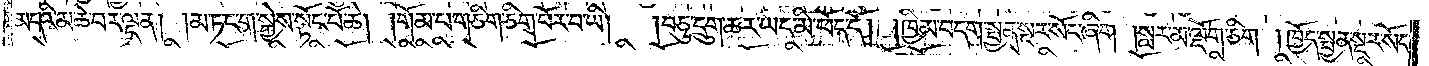མདའི་མཆེ་བར་ལྡན། །མ་ཏང་ག་སྐྱེས་སྟོང་པོ་ཆེ། །གོམ་པ་གཅིག་ཅིག་བོར་བ་ཡི།   །བཅུ་དྲུག་ཆར་ཡང་མི་ཕོད་དོ། །ཁྱིམ་བདག་སྤྱན་སྔར་སོང་ཞིག །སླར་མ་ལྡོག་ཅིག །ཁྱོད་སྤྱན་སྔར་སོང་
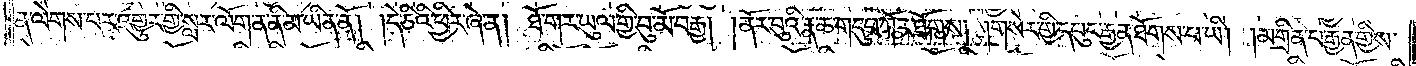ན་ལེགས་པར་འགྱུར་གྱི་སླར་ལོག་ན་ནི་མ་ཡིན་ནོ། །དེ་ཅིའི་ཕྱིར་ཞེ་ན། ཐོ་གར་ཡུལ་གྱི་བུ་མོ་བརྒྱ། །ནོར་བུའི་རྣ་ཆ་གདུབ་ཀོར་ཐོགས། །གསེར་གྱི་དཔུང་རྒྱན་ཐོགས་པ་ཡི། །མགྲིན་པ་རྒྱན་གྱིས་
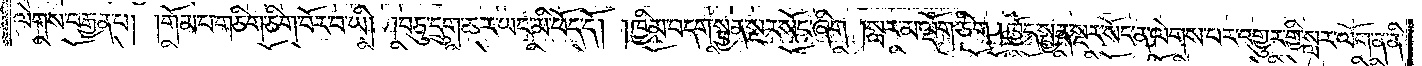ལེགས་བརྒྱན་པ། །གོམ་པ་གཅིག་ཅིག་བོར་བ་ཡི། །བཅུ་དྲུག་ཆར་ཡང་མི་ཕོད་དོ། །ཁྱིམ་བདག་སྤྱན་སྔར་སོང་ཞིག། །སླར་མ་ལྡོག་ཅིག །ཁྱོད་སྤྱན་སྔར་སོང་ན་ལེགས་པར་འགྱུར་གྱི་སླར་ལོག་ན་ནི་
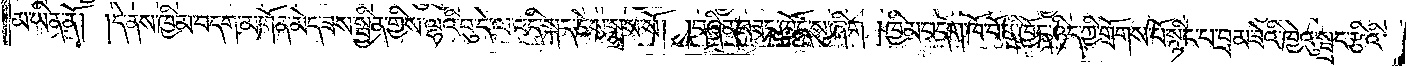མ་ཡིན་ནོ། །དེ་ནས་ཁྱིམ་བདག་མགོན་མེད་ཟས་སྦྱིན་གྱིས་ལྷའི་བུ་དེ་ལ་འདི་སྐད་ཅེས་སྨྲས་སོ། །བཞིན་བཟང་ཁྱོད་སུ་ཞིག །ཁྱིམ་བདག་ཁོ་བོ་ནི་ཁྱོད་ཉིད་ཀྱི་གྲོགས་པོ་སྙིང་པ་བྲམ་ཟེའི་ཁྱེའུ་སྦྲང་རྩིའི་
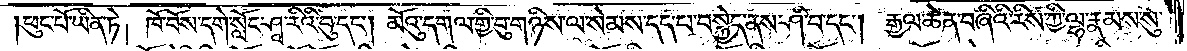ཕུང་པོ་ཡིན་ཏེ། ཁོ་བོས་དགེ་སློང་ཤཱ་རིའི་བུ་དང༌། མོའུ་དགལ་གྱི་བུ་གཉིས་ལ་སེམས་དད་པ་བསྐྱེད་ནས་ཤི་བ་དང༌།   རྒྱལ་ཆེན་བཞིའི་རིས་ཀྱི་ལྷ་རྣམས་སུ་
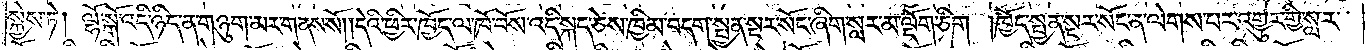སྐྱེས་ཏེ། ལྷོ་སྒོ་འདི་ཉིད་ན་གཉུག་མར་གནས་སོ། །དེའི་ཕྱིར་ཁྱོད་ལ་ཁོ་བོས་འདི་སྐད་ཅེས་ཁྱིམ་བདག་སྤྱན་སྔར་སོང་ཞིག་སླར་མ་ལྡོག་ཅིག །ཁྱོད་སྤྱན་སྔར་སོང་ནས་ལེགས་པར་འགྱུར་གྱི་སླར་
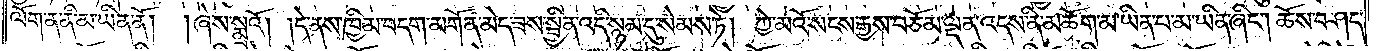ལོག་ན་ནི་མ་ཡིན་ནོ། །ཞེས་སྨྲའོ། །དེ་ནས་ཁྱིམ་བདག་མགོན་མེད་ཟས་སྦྱིན་འདི་སྙམ་དུ་སེམས་ཏེ། ཀྱེ་མའོ་སངས་རྒྱས་བཅོམ་ལྡན་འདས་ནི་མཆོག་མ་ཡིན་པ་མ་ཡིན་ཞིང༌། ཆོས་བཤད་
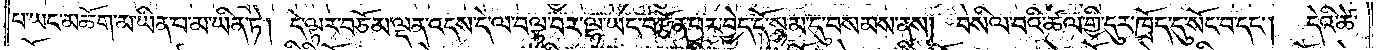པ་ཡང་མཆོག་མ་ཡིན་པ་མ་ཡིན་ཏེ། དེ་ལྟར་བཅོམ་ལྡན་འདས་དེ་ལ་བལྟ་བར་ལྷ་ཡང་བརྩོན་པར་བྱེད་དོ་སྙམ་དུ་བསམས་ནས། བསིལ་བའི་ཚལ་གྱི་དུར་ཁྲོད་དུ་སོང་བ་དང༌། དེའི་ཚེ་
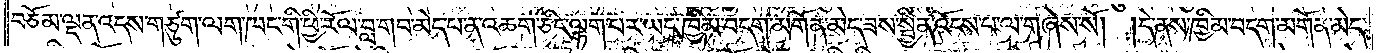བཅོམ་ལྡན་འདས་གཙུག་ལག་ཁང་གི་ཕྱི་རོལ་བླ་གབ་མེད་པ་ན་འཆག་ཅིང་ལྷག་པར་ཡང་ཁྱིམ་བདག་མགོན་མེད་ཟས་སྦྱིན་འོངས་པ་ལ་གཞེས་སོ། །དེ་ནས་ཁྱིམ་བདག་མགོན་མེད་
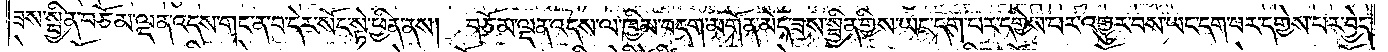ཟས་སྦྱིན་བཅོམ་ལྡན་འདས་གང་ན་བ་དེར་སོང་སྟེ་ཕྱིན་ནས། བཅོམ་ལྡན་འདས་ལ་ཁྱིམ་བདག་མགོན་མེད་ཟས་སྦྱིན་གྱིས་ཡང་དག་པར་དགྱེས་པར་འགྱུར་བས་ཡང་དག་པར་དགྱེས་པར་བྱེད་
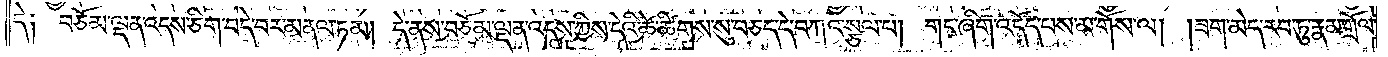དེ། བཅོམ་ལྡན་འདས་ཅིག་བདེ་བར་མནལ་ཏམ། དེ་ནས་བཅོམ་ལྡན་འདས་ཀྱིས་དེའི་ཚེ་ཚིགས་སུ་བཅད་དེ་བཀའ་སྩལ་པ། གང་ཞིག་འདོད་པས་མ་གོས་ལ། །ཟག་མེད་རབ་ཏུ་རྣམ་གྲོལ་
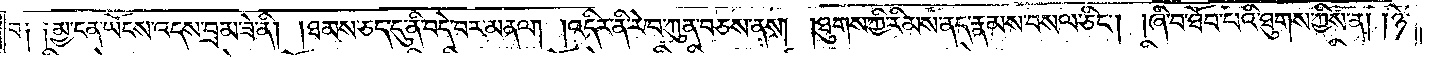བ། །མྱ་ངན་ཡོངས་འདས་བྲམ་ཟེ་ནི། །ཐམས་ཅད་དུ་ནི་བདེ་བར་མནལ། །འདིར་ནི་རེ་བ་ཀུན་བཅས་ནས། །ཐུགས་ཀྱི་རིམས་ནད་རྣམས་བསལ་ཅིང༌། །ཞི་བ་ཐོབ་པའི་ཐུགས་ཀྱིས་ན། །ཉེ་
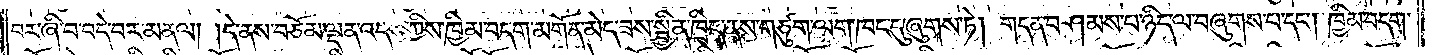བར་ཞི་བ་བདེ་བར་མནལ། །དེ་ནས་བཅོམ་ལྡན་འདས་ཀྱིས་ཁྱིམ་བདག་མགོན་མེད་ཟས་སྦྱིན་ཁྲིད་ནས་གཙུག་ལག་ཁང་དུ་ཞུགས་ཏེ། གདན་བཤམས་བ་ཉིད་ལ་བཞུགས་པ་དང༌། ཁྱིམ་བདག་
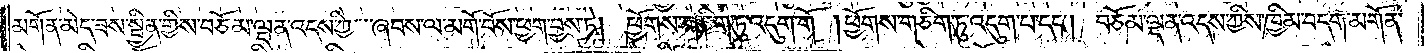མགོན་མེད་ཟས་སྦྱིན་གྱིས་བཅོམ་ལྡན་འདས་ཀྱི་ཞབས་ལ་མགོ་བོས་ཕྱག་བྱས་ཏེ། ཕྱོགས་གཅིག་ཏུ་འདུག་གོ །ཕྱོགས་གཅིག་ཏུ་འདུག་པ་དང༌། བཅོམ་ལྡན་འདས་ཀྱིས་ཁྱིམ་བདག་མགོན་
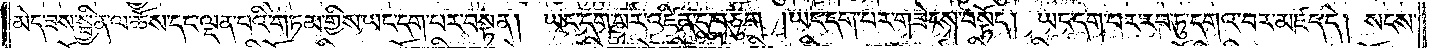མེད་ཟས་སྦྱིན་ལ་ཆོས་དང་ལྡན་པའི་གཏམ་གྱིས་ཡང་དག་པར་བསྟན། ཡང་དག་པར་འཛིན་དུ་བཅུག །ཡང་དག་པར་གཟེངས་བསྟོད། །ཡང་དག་པར་རབ་ཏུ་དགའ་བར་མཛད་དེ། སངས་
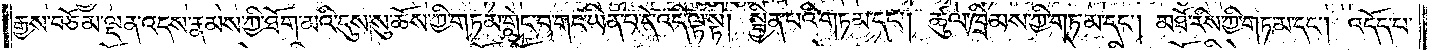རྒྱས་བཅོམ་ལྡན་འདས་རྣམས་ཀྱི་ཐོག་མའི་དུས་སུ་ཆོས་ཀྱི་གཏམ་གླེང་བ་གང་ཡིན་པ་དེ་འདི་ལྟ་སྟེ། སྦྱིན་པའི་གཏམ་དང༌། ཚུལ་ཁྲིམས་ཀྱི་གཏམ་དང༌། མཐོ་རིས་ཀྱི་གཏམ་དང༌། འདོད་པ་
